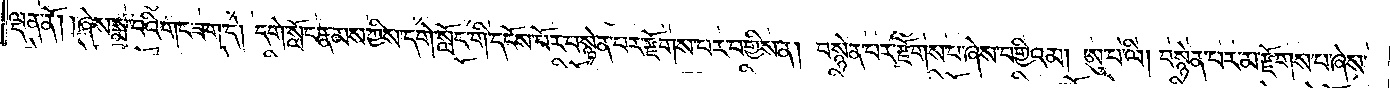ལྡན་ནོ། །ཞེས་སྨྲ་བའི་གང་ཟག་དེ། དགེ་སློང་རྣམས་ཀྱིས་དགེ་སློང་གི་དངོས་པོར་བསྙེན་པར་རྫོགས་པར་བགྱིས་ན། བསྙེན་པར་རྫོགས་པ་ཞེས་བགྱིའམ། ཨུ་པ་ལི། བསྙེན་པར་མ་རྫོགས་པ་ཞེས་
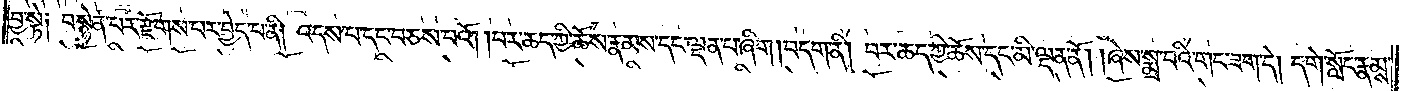བྱ་སྟེ༑ བསྙེན་པར་རྫོགས་པར་བྱེད་པ་ནི། འདས་པ་དང་བཅས་པའོ། །བར་ཆད་ཀྱི་ཆོས་རྣམས་དང་ལྡན་པ་ཞིག །བདག་ནི། བར་ཆད་ཀྱི་ཆོས་དང་མི་ལྡན་ནོ། །ཞེས་སྨྲ་བའི་གང་ཟག་དེ། དགེ་སློང་རྣམས་
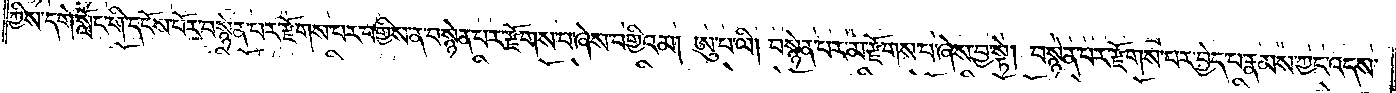ཀྱིས་དགེ་སློང་གི་དངོས་པོར་བསྙེན་པར་རྫོགས་པར་བགྱིས་ན་བསྙེན་པར་རྫོགས་པ་ཞེས་བགྱིའམ། ཨུ་པ་ལི། བསྙེན་པར་མ་རྫོགས་པ་ཞེས་བྱ་སྟེ། བསྙེན་པར་རྫོགས་པར་བྱེད་པ་རྣམས་ཀྱང་འདས་
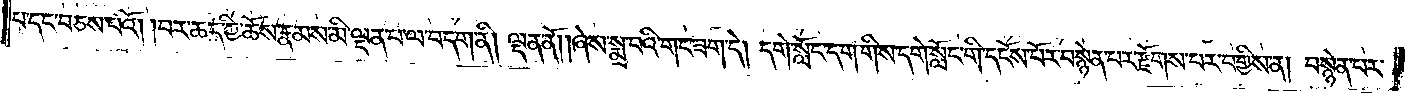པ་དང་བཅས་པའོ། །བར་ཆད་ཀྱི་ཆོས་རྣམས་མི་ལྡན་པ་ལ་བདག་ནི། ལྡན་ནོ། །ཞེས་སྨྲ་བའི་གང་ཟག་དེ། དགེ་སློང་དག་གིས་དགེ་སློང་གི་དངོས་པོར་བསྙེན་པར་རྫོགས་པར་བགྱིས་ན། བསྙེན་པར་
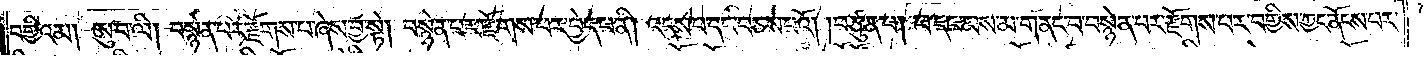།བགྱིའམ། ཨུ་པ་ལི། བསྙེན་པར་རྫོགས་པ་ཞེས་བྱ་སྟེ། བསྙེན་པར་རྫོགས་པར་བྱེད་པ་ནི། འདས་པ་དང་བཅས་པའོ། །བཙུན་པ། ཕ་དང་མས་མ་གནང་བ་བསྙེན་པར་རྫོགས་པར་བགྱིས་ཀྱང་ནོངས་པར་
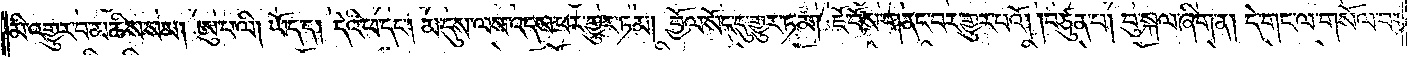མི་འགྱུར་བ་མཆིས་སམ། ཨུ་པ་ལི། ཡོད་ད། དེའི་ཕ་དང༌། མ་དུས་ལས་འདས་པར་གྱུར་ཏམ། བྱོལ་སོང་དུ་གྱུར་ཏམ། ཇོ་བོས་གནང་བར་གྱུར་པའོ། །བཙུན་པ། བུ་སྐལ་ཞིག་ན། དེ་གང་ལ་གསོལ་བར་
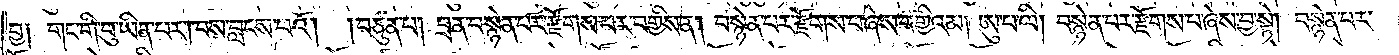བྱ༑ གང་གི་བུ་ཡིན་པར་ཁས་བླངས་པའོ། །བཙུན་པ། བྲན་བསྙེན་པར་རྫོགས་པར་བགྱིས་ན། བསྙེན་པར་རྫོགས་པ་ཞེས་བགྱིའམ། ཨུ་པ་ལི། བསྙེན་པར་རྫོགས་པ་ཞེས་བྱ་སྟེ། བསྙེན་པར་
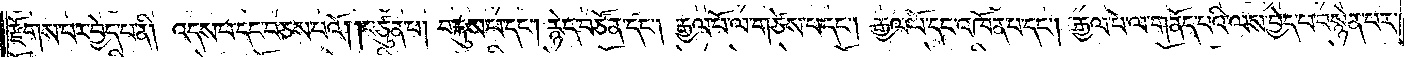རྫོགས་པར་བྱེད་པ་ནི། འདས་པ་དང་བཅས་པའོ། །བཙུན་པ། བརྐུས་པ་དང༌། རྙེད་བཙོན་དང༌། རྒྱལ་པོ་ལ་གཙེས་པ་དང༌། རྒྱལ་པོ་དང་འཁོན་པ་དང༌། རྒྱལ་པོ་ལ་གནོད་པའི་ལས་བྱེད་པ་བསྙེན་པར་
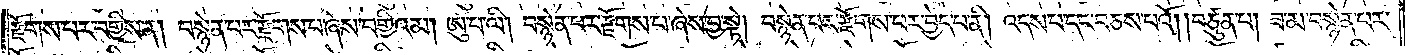རྫོགས་པར་བགྱིས་ན། བསྙེན་པར་རྫོགས་པ་ཞེས་བགྱིའམ། ཨུ་པ་ལི། བསྙེན་པར་རྫོགས་པ་ཞེས་བྱ་སྟེ། བསྙེན་པར་རྫོགས་པར་བྱེད་པ་ནི། འདས་པ་དང་བཅས་པའོ། །བཙུན་པ། ཟ་མ་བསྙེན་པར་
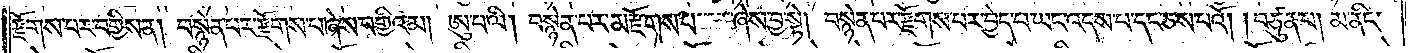རྫོགས་པར་བགྱིས་ན། བསྙེན་པར་རྫོགས་པ་ཞེས་བགྱིའམ། ཨུ་པ་ལི། བསྙེན་པར་མ་རྫོགས་པ་ཞེས་བྱ་སྟེ། བསྙེན་པར་རྫོགས་པར་བྱེད་པ་ཡང་འདས་པ་དང་བཅས་པའོ། །བཙུན་པ། མ་ནིང་
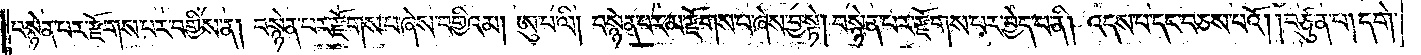བསྙེན་པར་རྫོགས་པར་བགྱིས་ན། བསྙེན་པར་རྫོགས་པ་ཞེས་བགྱིའམ། ཨུ་པ་ལི། བསྙེན་པར་མ་རྫོགས་པ་ཞེས་བྱ་སྟེ། བསྙེན་པར་རྫོགས་པར་བྱེད་པ་ནི། འདས་པ་དང་བཅས་པའོ། །བཙུན་པ། དགེ་
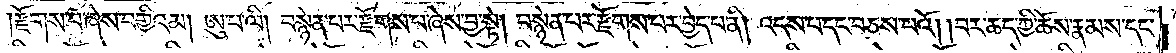།རྫོགས་པ་ཞེས་བགྱིའམ། ཨུ་པ་ལི། བསྙེན་པར་རྫོགས་པ་ཞེས་བྱ་སྟེ། བསྙེན་པར་རྫོགས་པར་བྱེད་པ་ནི། འདས་པ་དང་བཅས་པའོ། །བར་ཆད་ཀྱི་ཆོས་རྣམས་དང་
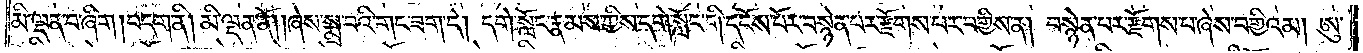མི་ལྡན་པ་ཞིག །བདག་ནི། མི་ལྡན་ནོ། །ཞེས་སྨྲ་བའི་གང་ཟག་དེ། དགེ་སློང་རྣམས་ཀྱིས་དགེ་སློང་གི་དངོས་པོར་བསྙེན་པར་རྫོགས་པར་བགྱིས་ན། བསྙེན་པར་རྫོགས་པ་ཞེས་བགྱིའམ། ཨུ་
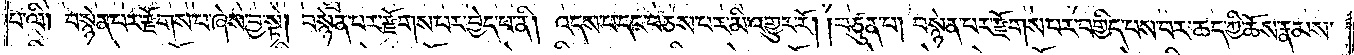པ་ལི། བསྙེན་པར་རྫོགས་པ་ཞེས་བྱ་སྟེ། བསྙེན་པར་རྫོགས་པར་བྱེད་པ་ནི། འདས་པ་དང་བཅས་པར་མི་འགྱུར་རོ། །བཙུན་པ། བསྙེན་པར་རྫོགས་པར་བགྱིད་པས་བར་ཆད་ཀྱི་ཆོས་རྣམས་
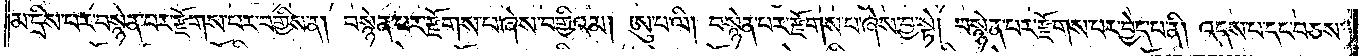མ་དྲིས་པར་བསྙེན་པར་རྫོགས་པར་བགྱིས་ན། བསྙེན་པར་རྫོགས་པ་ཞེས་བགྱིའམ། ཨུ་པ་ལི། བསྙེན་པར་རྫོགས་པ་ཞེས་བྱ་སྟེ། བསྙེན་པར་རྫོགས་པར་བྱེད་པ་ནི། འདས་པ་དང་བཅས་
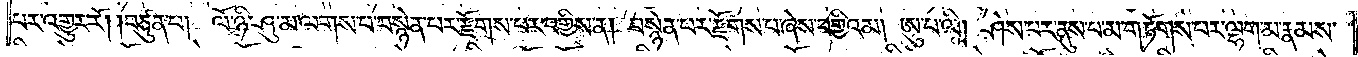པར་འགྱུར་རོ། །བཙུན་པ། ལོ་ཉི་ཤུ་མ་ལགས་པ་བསྙེན་པར་རྫོགས་པར་བགྱིས་ན། བསྙེན་པར་རྫོགས་པ་ཞེས་བགྱིའམ། ཨུ་པ་ལི། ཤེས་པར་ནུས་པ་མ་གཏོགས་པར་ལྷག་མ་རྣམས་
